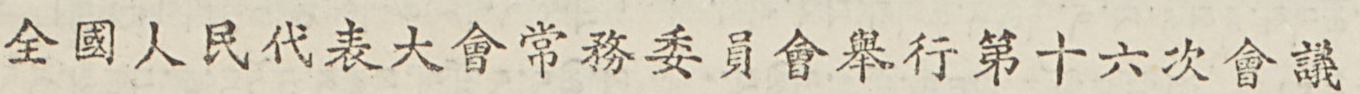全國人民代表大會常務委員會舉行第十六次會議
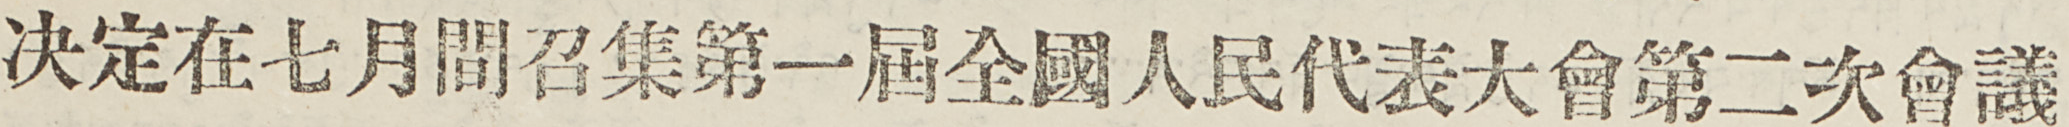決定在七月間召集第一屆全國人民代表大會第二次會議
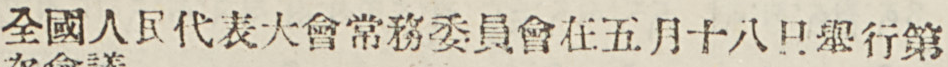全國人民代表大會常務委員會在五月十八日舉行第
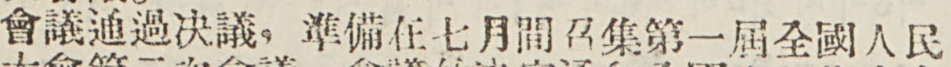會議通過決議，準備在七月間召集第一屆全國人民
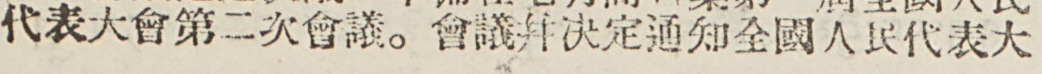代表大會第二次會議。會議並決定通知全國人民代表大
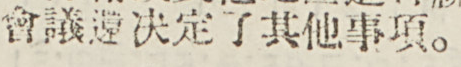會議還決定了其他事項。
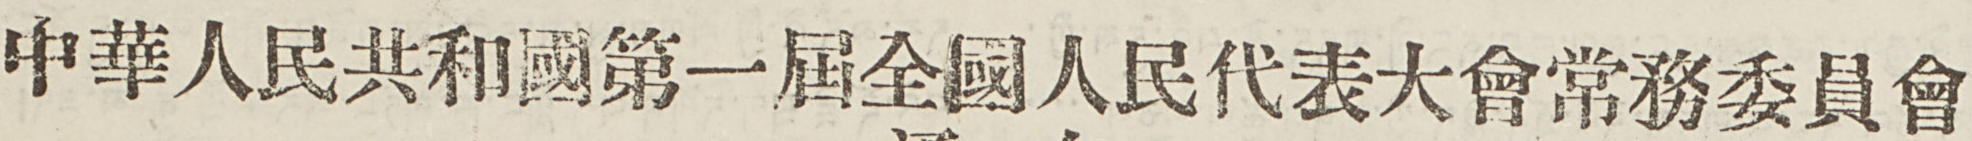中華人民共和國第一屆全國人民代表大會常務委員會
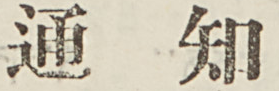通 知
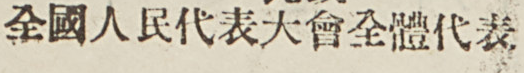全國人民代表大會全體代表
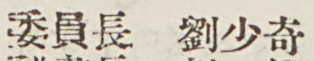委員長 劉少奇
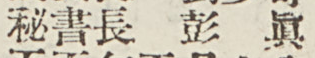祕書長 彭 眞
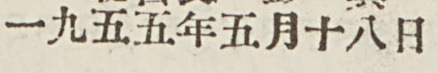一九五五年五月十八日
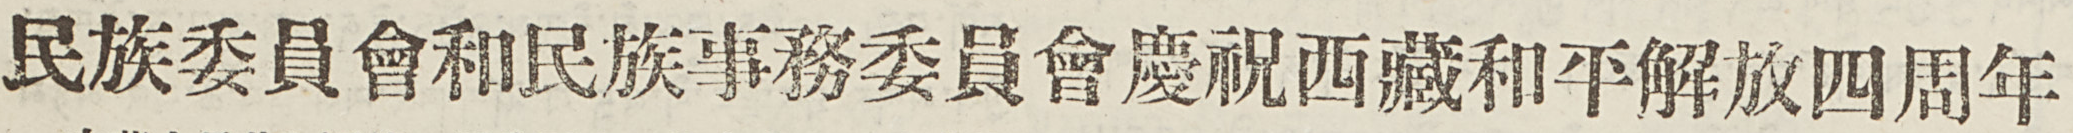民族委員會和民族事務委員會慶祝西藏和平解放四周年
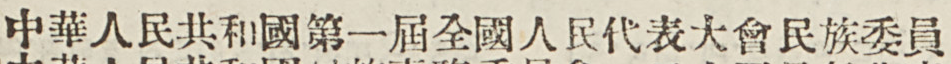中華人民共和國第一屆全國人民代表大會民族委員
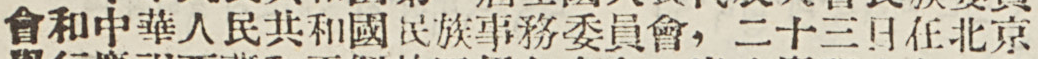會和中華人民共和國民族事務委員會，二十三日在北京
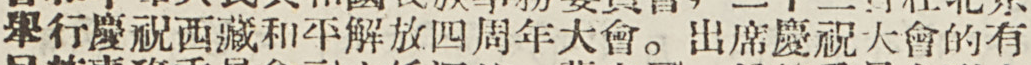舉行慶祝西藏和平解放四周年大會。出席慶祝大會的有
